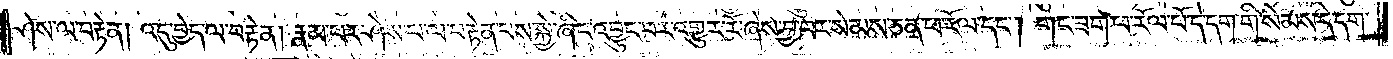ཤེས་ལ་བརྟེན། འདུ་བྱེད་ལ་བརྟེན། རྣམ་པར་ཤེས་པ་ལ་བརྟན་པས་སྐྱེ་ཞིང་འབྱུང་བར་འགྱུར་རོ་ཞེས་བྱ་བར་སེམས་ཅན་ཕ་རོལ་དང༌། གང་ཟག་ཕ་རོལ་པོ་དེ་དག་གི་སེམས་དེ་དག་
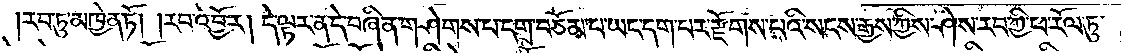རབ་ཏུ་མཁྱེན་ཏོ། །རབ་འབྱོར། དེ་ལྟར་ན་དེ་བཞིན་གཤེགས་པ་དགྲ་བཅོམ་པ་ཡང་དག་པར་རྫོགས་པའི་སངས་རྒྱས་ཀྱིས་ཤེས་རབ་ཀྱི་ཕ་རོལ་ཏུ་
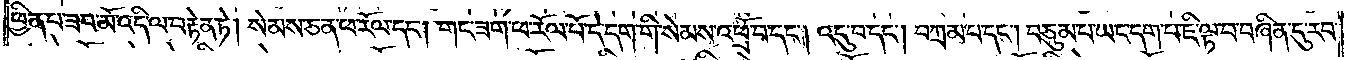ཕྱིན་པ་ཟབ་མོ་འདི་ལ་བརྟེན་ཏེ། སེམས་ཅན་ཕ་རོལ་དང༌། གང་ཟག་ཕ་རོལ་པོ་དེ་དག་གི་སེམས་འཕྲོ་བ་དང༌། འདུ་བ་དང༌། བཀྲམ་པ་དང༌། བཅུམ་པ་ཡང་དག་པ་ཇི་ལྟ་བ་བཞིན་དུ་རབ་
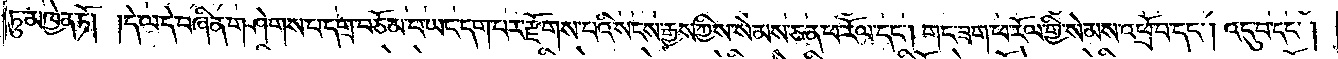ཏུ་མཁྱེན་ཏོ། །དེ་ལ་དེ་བཞིན་གཤེགས་པ་དགྲ་བཅོམ་པ་ཡང་དག་པར་རྫོགས་པའི་སངས་རྒྱས་ཀྱིས། སེམས་ཅན་ཕ་རོལ་དང༌། གང་ཟག་ཕ་རོལ་གྱི་སེམས་འཕྲོ་བ་དང༌། འདུ་བ་དང༌།
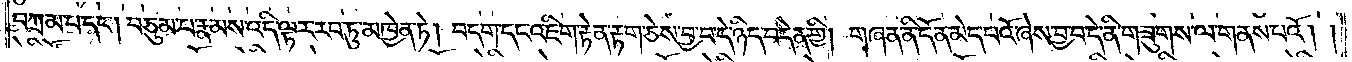བཀྲམ་པ་དང༌། བཅུམ་པ་རྣམ་པ་འདི་ལྟར་རབ་ཏུ་མཁྱེན་ཏེ། བདག་དང་འཇིག་རྟེན་རྟག་ཅེས་བྱ་བ་དེ་ཉིད་བདེན་གྱི། གཞན་ནི་དོན་མེད་པའོ་ཞེས་བྱ་བ་དེ་ནི་གཟུགས་ལ་གནས་པའོ། །
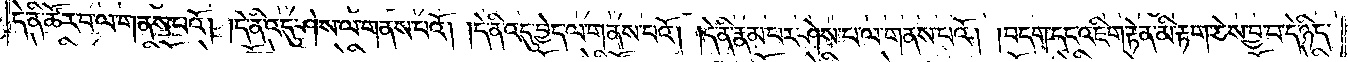དེ་ནི་ཚོར་བ་ལ་གནས་པའོ། །དེ་ནི་འདུ་ཤེས་ལ་གནས་པའོ། །དེ་ནི་འདུ་བྱེད་ལ་གནས་པའོ། །དེ་ནི་རྣམ་པར་ཤེས་པ་ལ་གནས་པའོ། །བདག་དང་འཇིག་རྟེན་མི་རྟག་ཅེས་བྱ་བ་དེ་ཉིད་
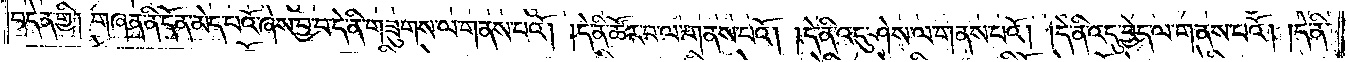བདེན་གྱི། གཞན་ནི་དོན་མེད་པའོ་ཞེས་བྱ་བ་དེ་ནི་གཟུགས་ལ་གནས་པའོ། །དེ་ནི་ཚོར་བ་ལ་གནས་པའོ། །དེ་ནི་འདུ་ཤེས་ལ་གནས་པའོ། །དེ་ནི་འདུ་བྱེད་ལ་གནས་པའོ། །དེ་ནི་
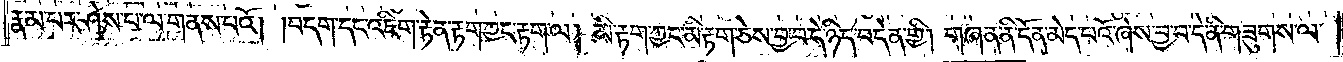རྣམ་པར་ཤེས་པ་ལ་གནས་པའོ། །བདག་དང་འཇིག་རྟེན་རྟག་ཀྱང་རྟག་ལ། མི་རྟག་ཀྱང་མི་རྟག་ཅེས་བྱ་བ་དེ་ཉིད་བདེན་གྱི། གཞན་ནི་དོན་མེད་པའོ་ཞེས་བྱ་བ་དེ་ནི་གཟུགས་ལ་
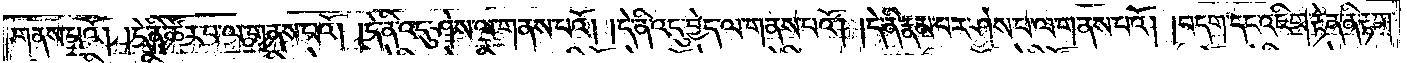གནས་པའོ། །དེ་ནི་ཚོར་བ་ལ་གནས་པའོ། །དེ་ནི་འདུ་ཤེས་ལ་གནས་པའོ། །དེ་ནི་འདུ་བྱེད་ལ་གནས་པའོ། །དེ་ནི་རྣམ་པར་ཤེས་པ་ལ་གནས་པའོ། །བདག་དང་འཇིག་རྟེན་ནི་རྟག་
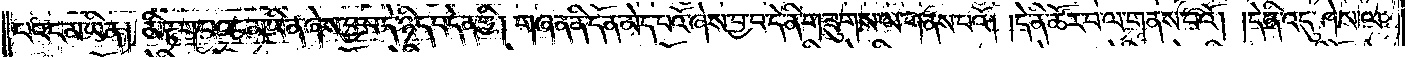པའང་མ་ཡིན། མི་རྟག་པའང་མ་ཡིན་ཞེས་བྱ་བ་དེ་ཉིད་བདེན་གྱི། གཞན་ནི་དོན་མེད་པའོ་ཞེས་བྱ་བ་དེ་ནི་གཟུགས་ལ་གནས་པའོ། །དེ་ནི་ཚོར་བ་ལ་གནས་པའོ། །དེ་ནི་འདུ་ཤེས་ལ་
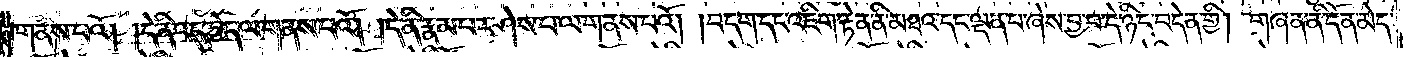གནས་པའོ། །དེ་ནི་འདུ་བྱེད་ལ་གནས་པའོ། །དེ་ནི་རྣམ་པར་ཤེས་པ་ལ་གནས་པའོ། །བདག་དང་འཇིག་རྟེན་ནི་མཐའ་དང་ལྡན་པ་ཞེས་བྱ་བ་དེ་ཉིད་བདེན་གྱི། གཞན་ནི་དོན་མེད་
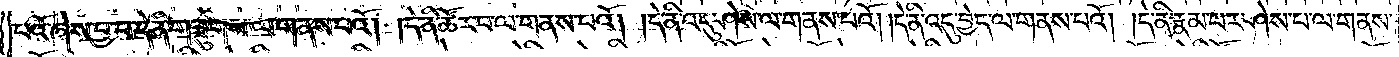པའོ་ཞེས་བྱ་བ་དེ་ནི་གཟུགས་ལ་གནས་པའོ། །དེ་ནི་ཚོར་བ་ལ་གནས་པའོ། །དེ་ནི་འདུ་ཤེས་ལ་གནས་པའོ། །དེ་ནི་འདུ་བྱེད་ལ་གནས་པའོ། །དེ་ནི་རྣམ་པར་ཤེས་པ་ལ་གནས་
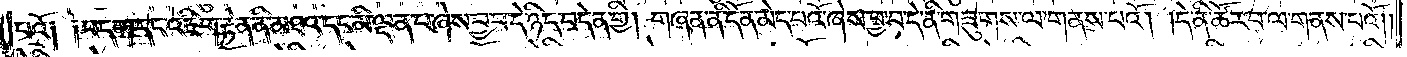པའོ༑ ༑བདག་དང་འཇིག་རྟེན་ནི་མཐའ་དང་མི་ལྡན་པ་ཞེས་བྱ་བ་དེ་ཉིད་བདེན་གྱི། གཞན་ནི་དོན་མེད་པའོ་ཞེས་བྱ་བ་དེ་ནི་གཟུགས་ལ་གནས་པའོ། །དེ་ནི་ཚོར་བ་ལ་གནས་པའོ། །
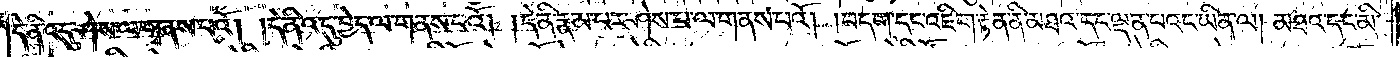དེ་ནི་འདུ་ཤེས་ལ་གནས་པའོ། །དེ་ནི་འདུ་བྱེད་ལ་གནས་པའོ། །དེ་ནི་རྣམ་པར་ཤེས་པ་ལ་གནས་པའོ། །བདག་དང་འཇིག་རྟེན་ནི་མཐའ་དང་ལྡན་པའང་ཡིན་ལ། མཐའ་དང་མི་
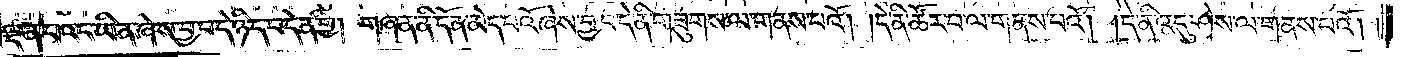ལྡན་པའང་ཡིན་ཞེས་བྱ་བ་དེ་ཉིད་བདེན་གྱི། གཞན་ནི་དོན་མེད་པའོ་ཞེས་བྱ་བ་དེ་ནི་གཟུགས་ལ་གནས་པའོ། །དེ་ནི་ཚོར་བ་ལ་གནས་པའོ། །དེ་ནི་འདུ་ཤེས་ལ་གནས་པའོ། །
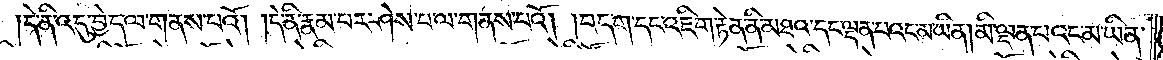དེ་ནི་འདུ་བྱེད་ལ་གནས་པའོ། །དེ་ནི་རྣམ་པར་ཤེས་པ་ལ་གནས་པའོ། །བདག་དང་འཇིག་རྟེན་ནི་མཐའ་དང་ལྡན་པའང་མ་ཡིན། མི་ལྡན་པའང་མ་ཡིན་
